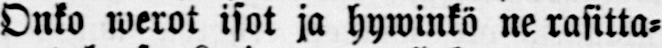Onko werot isot ja hywinkö ne rasitta-
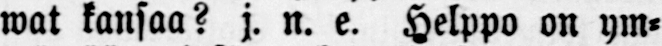wat kansaa? j. n. e. Helppo on ym-
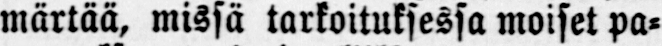märtää, missä tarkoituksessa moiset pa-
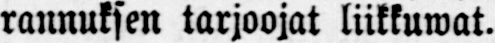rannuksen tarjoajat liikkuwat.
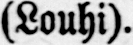(Louhi).
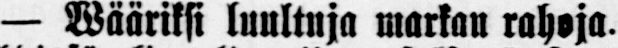— Wääriksi luultuja markan rahoja.
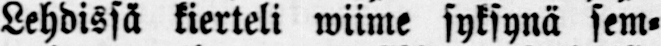Lehdissä kierteli wiime syksynä sem-
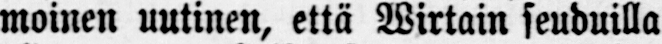moinen uutinen, että Wirtain seuduilla
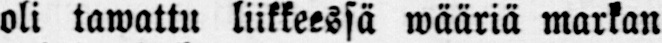oli tawattu liikkeessä wääriä markan
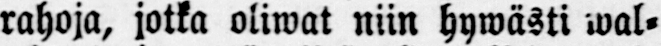rahoja, jotka oliwat niin hywästi wal-
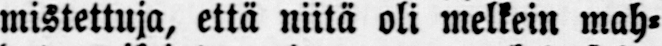mistettuja, että niitä oli melkein mah-
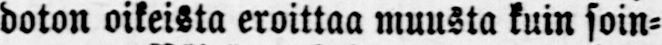doton oikeista eroittaa muusta kuin soin-
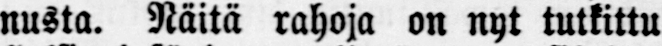nusta. Näitä rahoja on nyt tutkittu
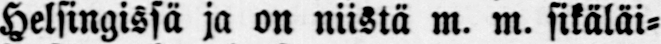Helsingissä ja on niistä m. m. sikäläi-
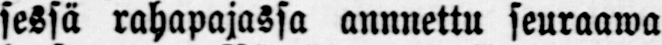sessä rahapajassa annnettu seuraawa
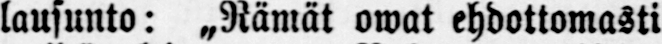lausunto: „Rämät owat ehdottomasti
